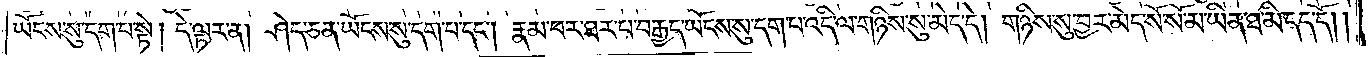ཡོངས་སུ་དག་པ་སྟེ། དེ་ལྟར་ན། ཤེད་ཅན་ཡོངས་སུ་དག་པ་དང༌། རྣམ་པར་ཐར་པ་བརྒྱད་ཡོངས་སུ་དག་པ་འདི་ལ་གཉིས་སུ་མེད་དེ། གཉིས་སུ་བྱར་མེད་སོ་སོ་མ་ཡིན་ཐ་མི་དད་དོ། །
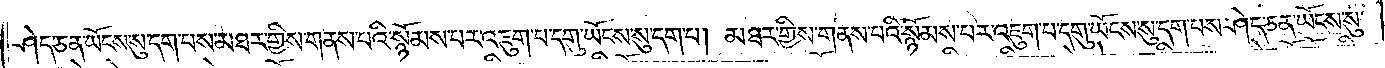ཤེད་ཅན་ཡོངས་སུ་དག་པས་མཐར་གྱིས་གནས་པའི་སྙོམས་པར་འཇུག་པ་དགུ་ཡོངས་སུ་དག་པ། མཐར་གྱིས་གནས་པའི་སྙོམས་པར་འཇུག་པ་དགུ་ཡོངས་སུ་དག་པས་ཤེད་ཅན་ཡོངས་སུ་
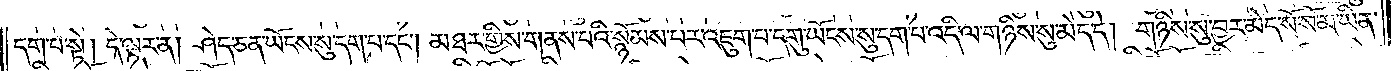དག་པ་སྟེ། དེ་ལྟར་ན། ཤེད་ཅན་ཡོངས་སུ་དག་པ་དང༌། མཐར་གྱིས་གནས་པའི་སྙོམས་པར་འཇུག་པ་དགུ་ཡོངས་སུ་དག་པ་འདི་ལ་གཉིས་སུ་མེད་དེ། གཉིས་སུ་བྱར་མེད་སོ་སོ་མ་ཡིན་
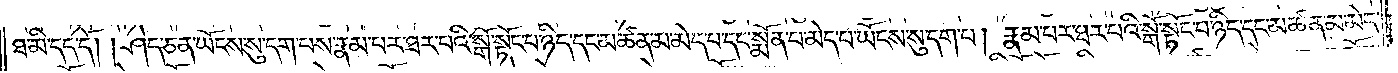ཐ་མི་དད་དོ། །ཤེད་ཅན་ཡོངས་སུ་དག་པས་རྣམ་པར་ཐར་པའི་སྒོ་སྟོང་པ་ཉིད་དང་མཚན་མ་མེད་པ་དང་སྨོན་པ་མེད་པ་ཡོངས་སུ་དག་པ། རྣམ་པར་ཐར་པའི་སྒོ་སྟོང་པ་ཉིད་དང་མཚན་མ་མེད་
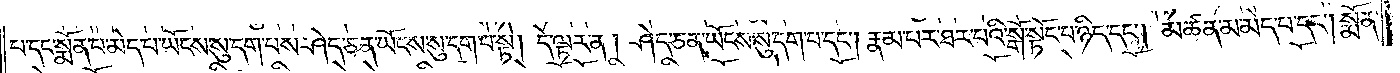པ་དང་སྨོན་པ་མེད་པ་ཡོངས་སུ་དག་པས་ཤེད་ཅན་ཡོངས་སུ་དག་པ་སྟེ། དེ་ལྟར་ན། ཤེད་ཅན་ཡོངས་སུ་དག་པ་དང༌། རྣམ་པར་ཐར་པའི་སྒོ་སྟོང་པ་ཉིད་དང༌། མཚན་མ་མེད་པ་དང་། སྨོན་
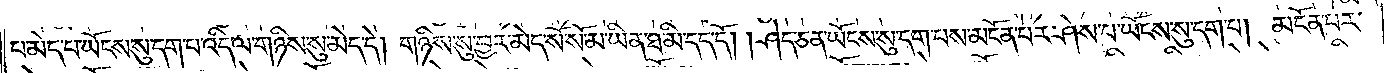པ་མེད་པ་ཡོངས་སུ་དག་པ་འདི་ལ་གཉིས་སུ་མེད་དེ། གཉིས་སུ་བྱར་མེད་སོ་སོ་མ་ཡིན་ཐ་མི་དད་དོ། །ཤེད་ཅན་ཡོངས་སུ་དག་པས་མངོན་པར་ཤེས་པ་ཡོངས་སུ་དག་པ། མངོན་པར་
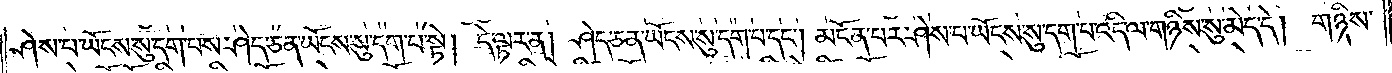ཤེས་པ་ཡོངས་སུ་དག་པས་ཤེད་ཅན་ཡོངས་སུ་དག་པ་སྟེ། དེ་ལྟར་ན། ཤེད་ཅན་ཡོངས་སུ་དག་པ་དང༌། མངོན་པར་ཤེས་པ་ཡོངས་སུ་དག་པ་འདི་ལ་གཉིས་སུ་མེད་དེ། གཉིས་
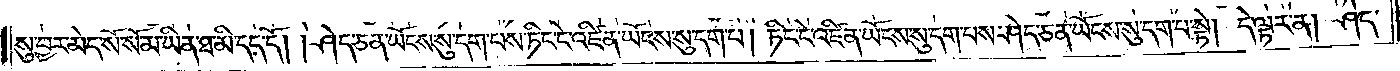སུ་བྱར་མེད་སོ་སོ་མ་ཡིན་ཐ་མི་དད་དོ། ཤེད་ཅན་ཡོངས་སུ་དག་པས་ཏིང་ངེ་འཛིན་ཡོངས་སུ་དག་པ། ཏིང་ངེ་འཛིན་ཡོངས་སུ་དག་པས་ཤེད་ཅན་ཡོངས་སུ་དག་པ་སྟེ། དེ་ལྟར་ན། ཤེད་
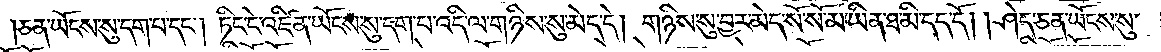ཅན་ཡོངས་སུ་དག་པ་དང༌། ཏིང་ངེ་འཛིན་ཡོངས་སུ་དག་པ་འདི་ལ་གཉིས་སུ་མེད་དེ། གཉིས་སུ་བྱར་མེད་སོ་སོ་མ་ཡིན་ཐ་མི་དད་དོ། །ཤེད་ཅན་ཡོངས་སུ་
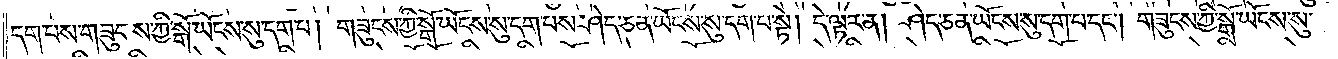དག་པས་གཟུངས་ཀྱི་སྒོ་ཡོངས་སུ་དག་པ། གཟུངས་ཀྱི་སྒོ་ཡོངས་སུ་དག་པས་ཤེད་ཅན་ཡོངས་སུ་དག་པ་སྟེ། དེ་ལྟར་ན། ཤེད་ཅན་ཡོངས་སུ་དག་པ་དང༌། གཟུངས་ཀྱི་སྒོ་ཡོངས་སུ་
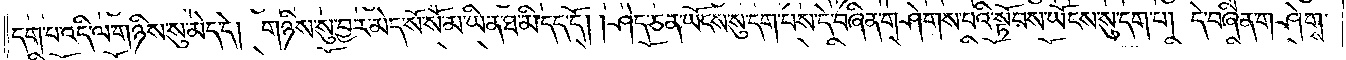དག་པ་འདི་ལ་གཉིས་སུ་མེད་དེ། གཉིས་སུ་བྱར་མེད་སོ་སོ་མ་ཡིན་ཐ་མི་དད་དོ། །ཤེད་ཅན་ཡོངས་སུ་དག་པས་དེ་བཞིན་གཤེགས་པའི་སྟོབས་ཡོངས་སུ་དག་པ། དེ་བཞིན་གཤེགས་
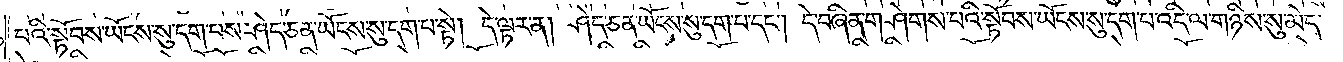པའི་སྟོབས་ཡོངས་སུ་དག་པས་ཤེད་ཅན་ཡོངས་སུ་དག་པ་སྟེ། དེ་ལྟར་ན། ཤེད་ཅན་ཡོངས་སུ་དག་པ་དང༌། དེ་བཞིན་གཤེགས་པའི་སྟོབས་ཡོངས་སུ་དག་པ་འདི་ལ་གཉིས་སུ་མེད་
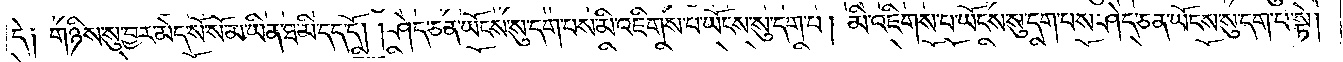དེ༑ གཉིས་སུ་བྱར་མེད་སོ་སོ་མ་ཡིན་ཐ་མི་དད་དོ། །ཤེད་ཅན་ཡོངས་སུ་དག་པས་མི་འཇིགས་པ་ཡོངས་སུ་དག་པ། མི་འཇིགས་པ་ཡོངས་སུ་དག་པས་ཤེད་ཅན་ཡོངས་སུ་དག་པ་སྟེ།
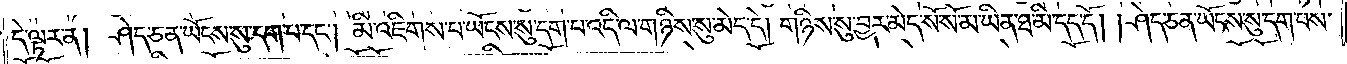དེ་ལྟར་ན། ཤེད་ཅན་ཡོངས་སུ་དག་པ་དང༌། མི་འཇིགས་པ་ཡོངས་སུ་དག་པ་འདི་ལ་གཉིས་སུ་མེད་དེ། གཉིས་སུ་བྱར་མེད་སོ་སོ་མ་ཡིན་ཐ་མི་དད་དོ། །ཤེད་ཅན་ཡོངས་སུ་དག་པས་
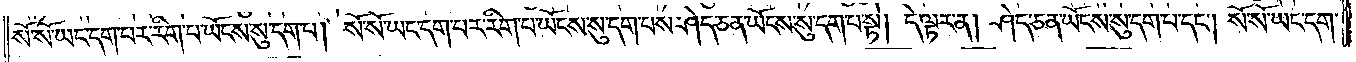སོ་སོ་ཡང་དག་པར་རིག་པ་ཡོངས་སུ་དག་པ། སོ་སོ་ཡང་དག་པར་རིག་པ་ཡོངས་སུ་དག་པས་ཤེད་ཅན་ཡོངས་སུ་དག་པ་སྟེ། དེ་ལྟར་ན། ཤེད་ཅན་ཡོངས་སུ་དག་པ་དང༌། སོ་སོ་ཡང་དག་
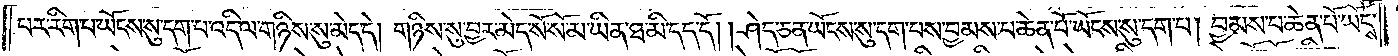པར་རིག་པ་ཡོངས་སུ་དག་པ་འདི་ལ་གཉིས་སུ་མེད་དེ། གཉིས་སུ་བྱར་མེད་སོ་སོ་མ་ཡིན་ཐ་མི་དད་དོ། །ཤེད་ཅན་ཡོངས་སུ་དག་པས་བྱམས་པ་ཆེན་པོ་ཡོངས་སུ་དག་པ། བྱམས་པ་ཆེན་པོ་ཡོངས་
